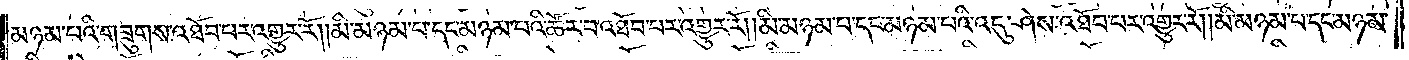མཉམ་པའི་གཟུགས་འཐོབ་པར་འགྱུར་རོ། །མི་མཉམ་པ་དང་མཉམ་པའི་ཚོར་བ་འཐོབ་པར་འགྱུར་རོ། །མི་མཉམ་པ་དང་མཉམ་པའི་འདུ་ཤེས་འཐོབ་པར་འགྱུར་རོ། །མི་མཉམ་པ་དང་མཉམ་
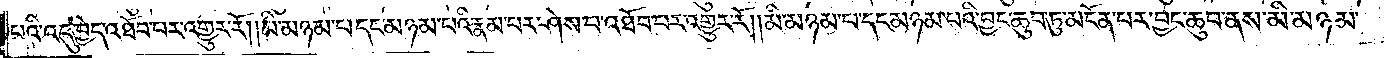པའི་འདུ་བྱེད་འཐོབ་པར་འགྱུར་རོ། །མི་མཉམ་པ་དང་མཉམ་པའི་རྣམ་པར་ཤེས་པ་འཐོབ་པར་འགྱུར་རོ། །མི་མཉམ་པ་དང་མཉམ་པའི་བྱང་ཆུབ་ཏུ་མངོན་པར་བྱང་ཆུབ་ནས་མི་མཉམ་
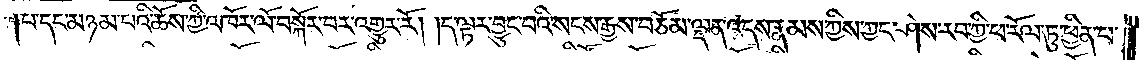པ་དང་མཉམ་པའི་ཆོས་ཀྱི་འཁོར་ལོ་བསྐོར་བར་འགྱུར་རོ། །ད་ལྟར་བྱུང་བའི་སངས་རྒྱས་བཅོམ་ལྡན་འདས་རྣམས་ཀྱིས་ཀྱང་ཤེས་རབ་ཀྱི་ཕ་རོལ་ཏུ་ཕྱིན་པ་
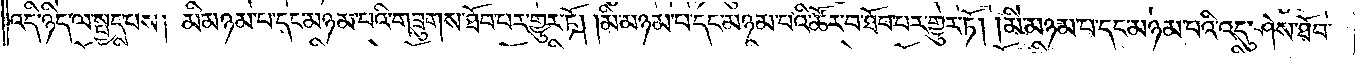འདི་ཉིད་ལ་སྤྱད་པས། མི་མཉམ་པ་དང་མཉམ་པའི་གཟུགས་ཐོབ་པར་གྱུར་ཏོ། །མི་མཉམ་པ་དང་མཉམ་པའི་ཚོར་བ་ཐོབ་པར་གྱུར་རོ། །མི་མཉམ་པ་དང་མཉམ་པའི་འདུ་ཤེས་ཐོབ་
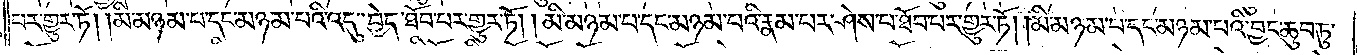པར་གྱུར་ཏོ། །མི་མཉམ་པ་དང་མཉམ་པའི་འདུ་བྱེད་ཐོབ་པར་གྱུར་ཏོ། །མི་མཉམ་པ་དང་མཉམ་པའི་རྣམ་པར་ཤེས་པ་ཐོབ་པར་གྱུར་ཏོ། །མི་མཉམ་པ་དང་མཉམ་པའི་བྱང་ཆུབ་ཏུ་
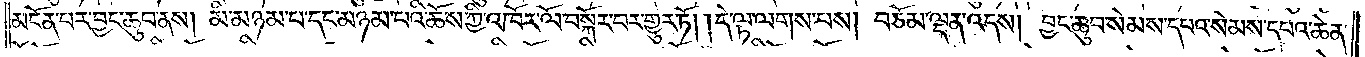མངོན་པར་བྱང་ཆུབ་ནས། མི་མཉམ་པ་དང་མཉམ་པའི་ཆོས་ཀྱི་འཁོར་ལོ་བསྐོར་བར་གྱུར་ཏོ། །དེ་ལྟ་ལགས་པས། བཅོམ་ལྡན་འདས། བྱང་ཆུབ་སེམས་དཔའ་སེམས་དཔའ་ཆེན་
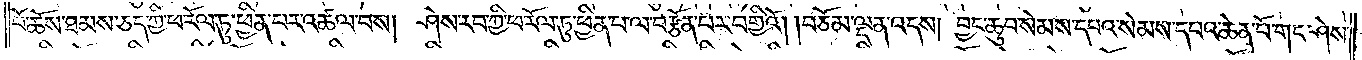པོ་ཆོས་ཐམས་ཅད་ཀྱི་ཕ་རོལ་ཏུ་ཕྱིན་པར་འཚལ་བས། ཤེས་རབ་ཀྱི་ཕ་རོལ་ཏུ་ཕྱིན་པ་ལ་བརྩོན་པར་བགྱིའོ། །བཅོམ་ལྡན་འདས། བྱང་ཆུབ་སེམས་དཔའ་སེམས་དཔའ་ཆེན་པོ་གང་ཤེས་
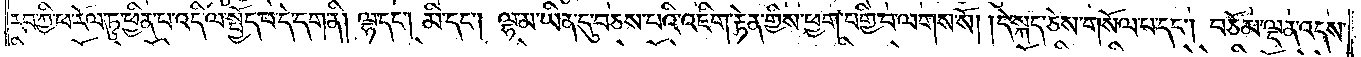རབ་ཀྱི་ཕ་རོལ་ཏུ་ཕྱིན་པ་འདི་ལ་སྤྱོད་པ་དེ་དག་ནི། ལྷ་དང༌། མི་དང༌། ལྷ་མ་ཡིན་དུ་བཅས་པའི་འཇིག་རྟེན་གྱིས་ཕྱག་བགྱི་བ་ལགས་སོ། །དེ་སྐད་ཅེས་གསོལ་བ་དང༌། བཅོམ་ལྡན་འདས་
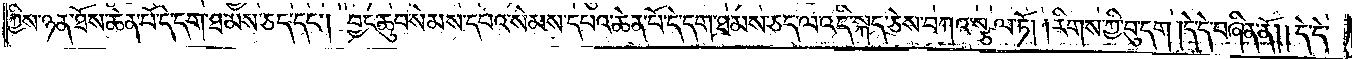ཀྱིས་ཉན་ཐོས་ཆེན་པོ་དེ་དག་ཐམས་ཅད་དང༌། བྱང་ཆུབ་སེམས་དཔའ་སེམས་དཔའ་ཆེ་པོ་དེ་དག་ཐམས་ཅད་ལ་འདི་སྐད་ཅེས་བཀའ་སྩལ་ཏོ། །རིགས་ཀྱི་བུ་དག །དེ་དེ་བཞིན་ནོ། །དེ་དེ་
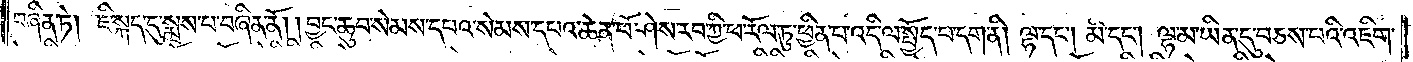བཞིན་ཏེ། ཇི་སྐད་དུ་སྨྲས་པ་བཞིན་ནོ། །བྱང་ཆུབ་སེམས་དཔའ་སེམས་དཔའ་ཆེན་པོ་ཤེས་རབ་ཀྱི་ཕ་རོལ་ཏུ་ཕྱིན་པ་འདི་ལ་སྤྱོད་པ་དག་ནི། ལྷ་དང༌། མི་དང༌། ལྷ་མ་ཡིན་དུ་བཅས་པའི་འཇིག་
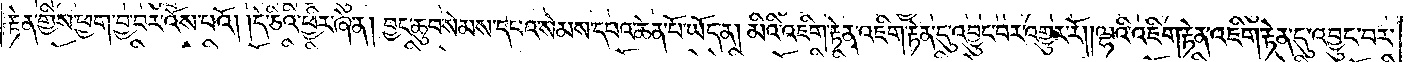རྟེན་གྱིས་ཕྱག་བྱ་བར་འོས་པའོ། །དེ་ཅིའི་ཕྱིར་ཞེ་ན། བྱང་ཆུབ་སེམས་དཔའ་སེམས་དཔའ་ཆེན་པོ་ཡོད་ན། མིའི་འཇིག་རྟེན་འཇིག་རྟེན་དུ་འབྱུང་བར་འགྱུར་རོ། །ལྷའི་འཇིག་རྟེན་འཇིག་རྟེན་དུ་འབྱུང་བར་
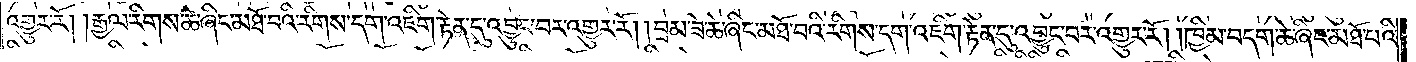འགྱུར་རོ། །རྒྱལ་རིགས་ཆེ་ཞིང་མཐོ་བའི་རིགས་དག་འཇིག་རྟེན་དུ་འབྱུང་བར་འགྱུར་རོ། །བྲམ་ཟེ་ཆེ་ཞིང་མཐོ་བའི་རིགས་དག་འཇིག་རྟེན་དུ་འབྱུང་བར་འགྱུར་རོ། །ཁྱིམ་བདག་ཆེ་ཞིང་མཐོ་པོའི་
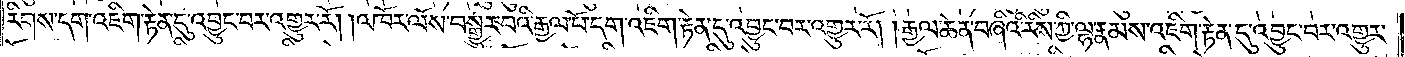རིགས་དག་འཇིག་རྟེན་དུ་འབྱུང་བར་འགྱུར་རོ། །འཁོར་ལོས་བསྒྱུར་བའི་རྒྱལ་པོ་དག་འཇིག་རྟེན་དུ་འབྱུང་བར་འགྱུར་རོ། །རྒྱལ་ཆེན་བཞིའི་རིས་ཀྱི་ལྷ་རྣམས་འཇིག་རྟེན་དུ་འབྱུང་བར་འགྱུར་
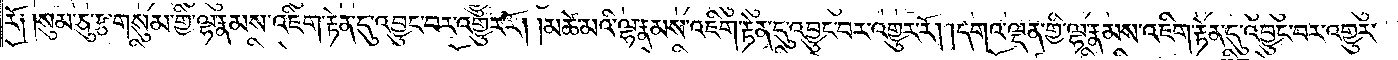རོ༑ །སུམ་ཅུ་རྩ་གསུམ་གྱི་ལྷ་རྣམས་འཇིག་རྟེན་དུ་འབྱུང་བར་འགྱུར་རོ། །མཚེ་མའི་ལྷ་རྣམས་འཇིག་རྟེན་དུ་འབྱུང་བར་འགྱུར་རོ། །དགའ་ལྡན་གྱི་ལྷ་རྣམས་འཇིག་རྟེན་དུ་འབྱུང་བར་འགྱུར་
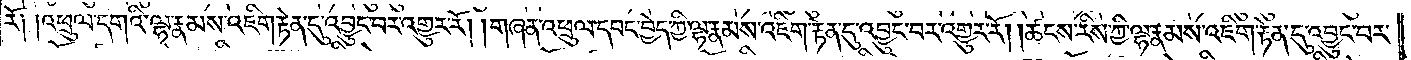རོ༑ །འཕྲུལ་དགའི་ལྷ་རྣམས་འཇིག་རྟེན་དུ་འབྱུང་བར་འགྱུར་རོ། །གཞན་འཕྲུལ་དབང་བྱེད་ཀྱི་ལྷ་རྣམས་འཇིག་རྟེན་དུ་འབྱུང་བར་འགྱུར་རི། །ཚངས་རིས་ཀྱི་ལྷ་རྣམས་འཇིག་རྟེན་དུ་འབྱུང་བར་
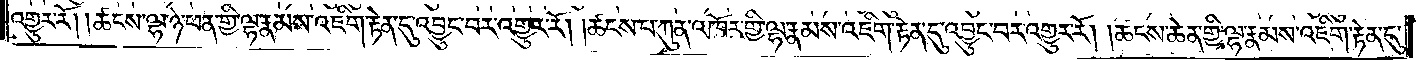འགྱུར་རོ། །ཚངས་ལྷ་ཉེ་ཕན་གྱི་ལྷ་རྣམས་འཇིག་རྟེན་དུ་འབྱུང་བར་འགྱུར་རོ། །ཚངས་པ་ཀུན་འཁོར་གྱི་ལྷ་རྣམས་འཇིག་རྟེན་དུ་འབྱུང་བར་འགྱུར་རོ། །ཚངས་ཆེན་གྱི་ལྷ་རྣམས་འཇིག་རྟེན་དུ་
